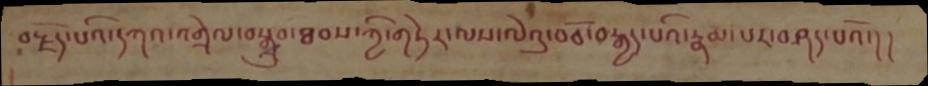བརྗོད་པའི་དཀའ་འགྲེལ་བསྒྲུབ་ཐབས་ཀྱི་གཏེར་ལས་ལེའུ་བཅོ་བརྒྱད་པའི་རྣམ་པར་བཤད་པའོ་།།
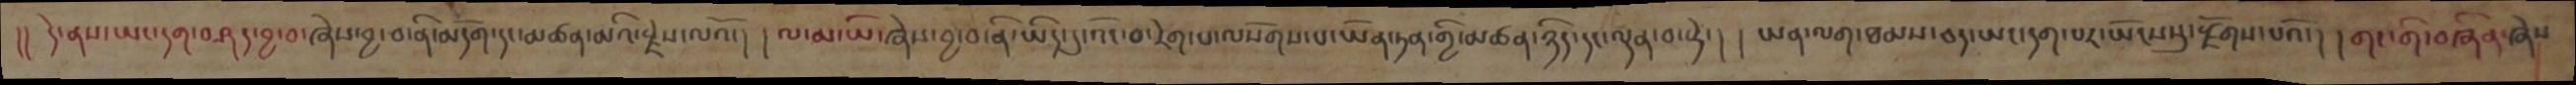།། དེ་ནས་ཡང་དག་བཤད་བྱ་བ་ཞེས་བྱ་བ་ནི་མདོག་དང་མཚན་མའི་རྗེས་ལའོ་། །ལ་མ་ཡི་ཞེས་བྱ་བ་ནི་ཡིད་དུ་འོང་བ་རེག་པ་ལསོགས་པ་ཡོན་ཏན་གྱི་མཚན་ཉིད་དང་ལྡན་བ་སྟེ་། །ཡན་ལག་ཐམས་ཅད་ཡང་དག་པར་ཡོངས་སུ་རྫོགས་པའོ་། །གང་གི་བཞིན་ཞེས་
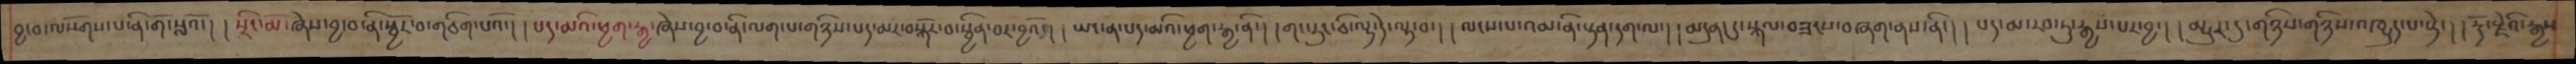བྱ་བ་ལསོགས་པ་ནི་གོ་སླའོ་། །སྲིང་མོ་ཞེས་བྱ་བ་ནི་སྦྱོར་བ་གཅིག་པའོ་། །པད་མའི་ཕྱག་རྒྱ་ཞེས་བྱ་བ་ནི་ལག་པ་གཉིས་པད་མར་བསྐོར་བ་སྦྱིན་བར་བྱའོ་། །ཡང་ན་པད་མའི་ཕྱག་རྒྱ་ནི་། །གང་རུང་ཅི་ལྟ་དེ་ལྟ་བ་། །ལངས་པ་འམ་ནི་སྟན་དག་ལ་། །མདུན་དུ་སྐལ་བཟངས་བཞག་ནས་ནི་། །པད་མ་རབ་ཏུ་རྒྱས་པར་བྱ་། །མྱུར་དུ་གཉིས་གཉིས་འཁྱུད་པ་སྟེ་། རྡོ་རྗེའི་རྒྱས
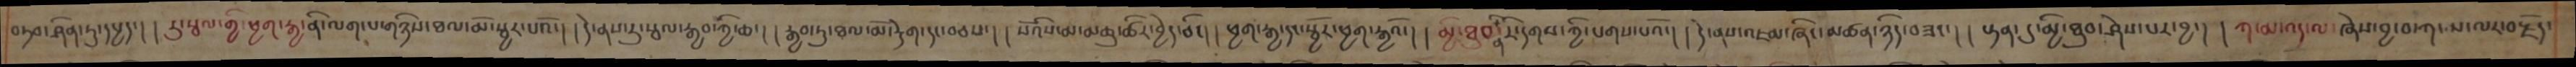བཏབ་ཤིན་ཏུ་དཔྱད་། །རུ་སྦལ་གྱི་ཕྱག་རྒྱ་ནི་ལག་པ་གཉིས་ཐལ་མོ་སྦྱར་པའོ་། །དེ་ནས་རུ་སྦལ་རྒྱབ་ཀྱི་ཆ་། །རྒྱབ་ཏུ་ཐལ་མོ་རྡེག་དང་བཅས་། །སོའིས་མ་མཆུ་ཚིར་བྱེད་ཅིང། །ཕྱག་རྒྱ་དང་སྦྱོར་ཕྱག་རྒྱའོ་། །མྱི་ཐུབ་ནི་རི་དགས་ཀྱི་པགས་པའོ་། །དེ་ནས་འཇམ་ཞིང་མཚན་ཉིད་བཟང་། །སྟན་དུ་མྱི་ཐུབ་ཤེས་པར་བྱ་། །ཀ་མ་འདུ་ལ་ཞེས་བྱ་བ་ཀ་པ་ལར་བརྗོད་
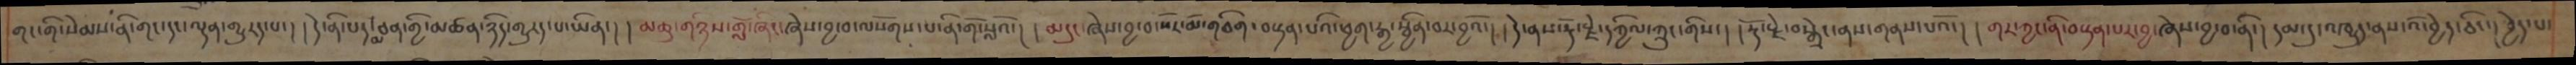གང་གི་སེམས་ནི་གང་དང་ལྡན་གྱུརད་པ་། །དེ་ནི་པད་མ་ཅན་གྱི་མཚན་ཉིད་གྱུརད་པ་ཡིན་། །མཆུ་གཉིས་གློ་ཞིང་ཞེས་བྱ་བ་ལསོགས་པ་ནི་གོ་སླའོ་། །མདུང་ཞེས་བྱ་བ་སེར་མོ་གཅིག་བསྟན་པའི་ཕྱག་རྒྱ་སྦྱིན་བར་བྱའོ་། །དེ་ནས་རྡོ་རྗེ་དཀྱིལ་ཀྲུང་གིས་། །རྡོ་རྗེ་བསྒྲེང་ནས་གནས་པའོ་། །གར་ཀྱང་ནི་བསྟན་པར་བྱ་ཞེས་བྱ་བ་ནི་། དམ་དུ་འཁྱུད་ནས་འོ་བྱེད་ཅིང་། བྱེད་པ་
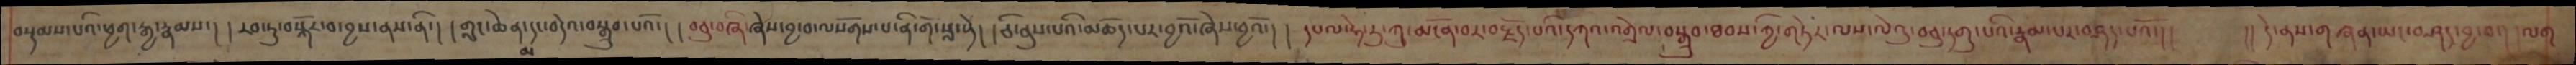བསྡམས་པའི་ཕྱག་རྒྱ་རྣམས་། །རབ་ཏུ་བསྐོར་བ་བྱས་ནས་ནི་། །གླང་ཆེན་མ་དང་བདེའ་བསྒྲུབ་པའོ་། །བཅུ་བཞི་ཞེས་བྱ་བ་ལསོགས་པ་ནི་གོ་སླ་སྟེ། །ཅི་ནུས་པའི་མཆོད་པར་བྱའོ་ཞེས་བྱའོ་། །དཔལ་ཧེ་རུ་ཀ་མངོན་པར་བརྗོད་པའི་དཀའ་འགྲེལ་བསྒྲུབ་ཐབས་ཀྱི་གཏེར་ལས་ལེའུ་བཅུ་དགུ་པའི་རྣམ་པར་བཤད་པའོ་།།    །། དེ་ནས་གཞན་ཡང་བཤད་བྱ་བ་། །ལག
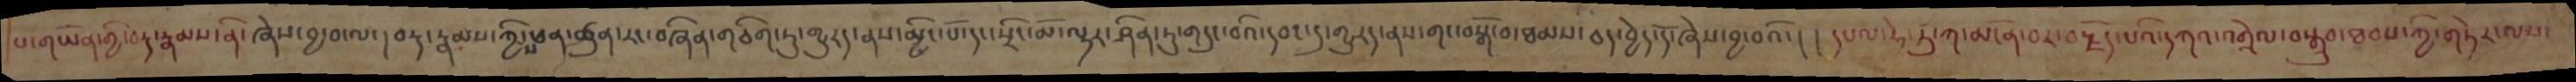པ་གཡོན་གྱི་བརྡ་རྣམས་ནི་ཞེས་བྱ་བ་ལ་། བརྡ་རྣམས་ཀྱིས་ཕན་ཚུན་རང་བཞིན་གཅིག་ཏུ་གྱུརད་ནས་མྱིང་པོ་དང་སྲིང་མོ་ལྟར་ཤིན་ཏུ་གདུང་བའི་དབང་དུ་གྱུརད་ནས་གང་བསྒོ་བ་ཐམས་ཅད་བྱེད་དོ་ཞེས་བྱ་བའོ་། །དཔལ་ཧེ་རུ་ཀ་མངོན་བར་བརྗོད་པའི་དཀའ་འགྲེལ་བསྒྲུབ་ཐབས་ཀྱི་གཏེར་ལས་
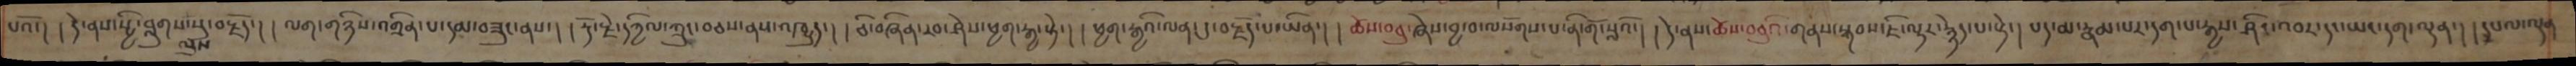པའོ་། །དེ་ནས་སྤྱི་བླུགས་ལུས་སུ་བརྗོད་། །ལག་གཉིས་འགྲིན་པ་དམ་བཟུང་ནས་། །རྡོ་རྗེ་དཀྱིལ་ཀྲུང་བཅས་ནས་འཁྱུད་། །ཅི་བཞིན་རབ་ཤེས་ཕྱག་རྒྱ་སྟེ་། །ཕྱག་རྒྱའི་ལན་དུ་བརྗོད་པ་ཡིན་། །ཚེས་བཅུ་ཞེས་བྱ་བ་ལསོགས་པ་ནི་གོ་སླའོ་། །དེ་ནས་ཚེས་བཅུའི་གནས་སྐབས་ཇི་ལྟར་རྙེད་པ་སྟེ་། པད་མ་རྣམ་པར་དག་པ་རྒྱས་ཤིང་འབར་དང་ཡང་དག་ལྡན་། །དཔལ་ལྡན་
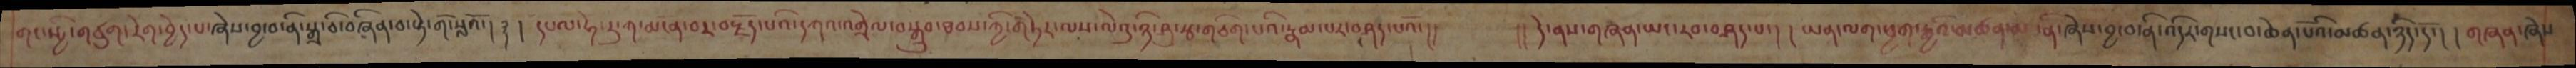གང་སྤྱི་གཙུག་རེག་བྱེད་པ་ཞེས་བྱ་བ་ནི་སྒྲ་ཅི་བཞིན་བ་སྟེ་གོ་སླའོ་། ࿑ །དཔལ་ཧེ་རུ་ཀ་མངོན་པར་བརྗོད་པའི་དཀའ་འགྲེལ་བསྒྲུབ་ཐབས་ཀྱི་གཏེར་ལས་ལེའུ་ཉི་ཤུ་རྩ་གཅིག་པའི་རྣམ་པར་བཤད་པའོ་།།    །།དེ་ནས་གཞན་ཡང་རབ་བཤད་པ་། །ཡན་ལག་ཕྱག་རྒྱའི་མཚན་མ་ནི་ཞེས་བྱ་བ་ནི་འདིར་གསང་བ་ཆེན་པོའི་མཚན་ཉིད་དོ་། །གཞན་ཞེས་
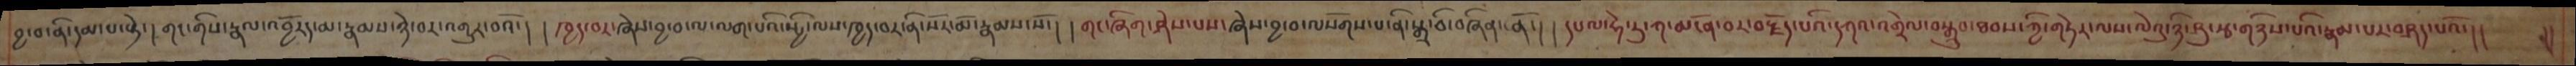བྱ་བ་ནི་དམ་པ་སྟེ་། གང་གིས་རྣལ་འབྱོརད་མ་རྣམས་ཉེ་བར་འགྱུར་བའོ་། །ཁྱད་པར་ཞེས་བྱ་བ་ལ་ལག་པའི་སྤྱི་ལས་ཁྱད་པར་ནི་སོར་མོ་རྣམས་སོ་། །གང་ཞིག་ཤེས་པས་ཞེས་བྱ་བ་ལསོགས་པ་ནི་སྒྲ་ཅི་བཞིན་ནོ་། །དཔལ་ཧེ་རུ་ཀ་མངོན་པར་བརྗོད་པའི་དཀའ་འགྲེལ་བསྒྲུབ་ཐབས་ཀྱི་གཏེར་ལས་ལེའུ་ཉི་ཤུ་རྩ་གཉིས་པའི་རྣམ་པར་བཤད་པའོ་།།   །།
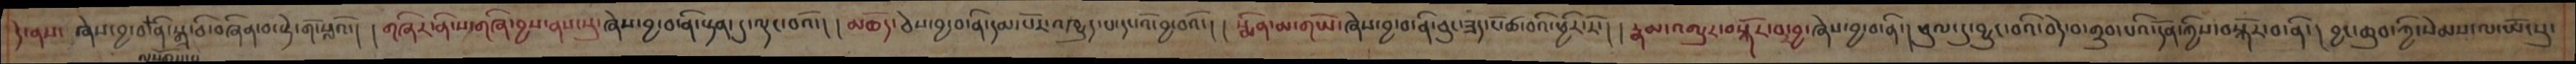ད་ནས་  ཞེས་བྱ་བ་ནི་སྒྲ་ཅི་བཞིན་བ་སྟེ་གོ་སླའོ་། །གཞིར་ནི་ས་གཞི་བྱས་ནས་སུ་ཞེས་བྱ་བ་ནི་སྟན་དུ་ལུང་བའོ་། །མཆོད་ཅེས་བྱ་བ་ནི་དམ་པོར་འཁྱུད་པ་དཔའོ་བྱ་བའོ་། །སྨིན་མ་གཡོ་ཞེས་བྱ་བ་ནི་ཅུང་ཟད་ངོ་ཚ་བའི་ཕྱིར་རོ་། །རྣམ་འགྱུར་བསྐོར་བར་བྱ་ཞེས་བྱ་བ་ནི་། ཕུལ་དུ་བྱུང་བའི་བདེ་བ་གྲུབ་པའི་དོན་གྱིས་བསྐོར་བ་ནི་། བྱང་ཆུབ་ཀྱི་སེམས་ལ་ཡོངསུ་
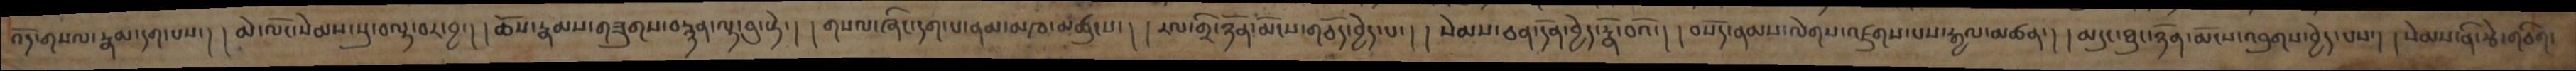འོད་གསལ་རྣམ་དག་པས་། །མེ་ལོང་སེམས་སུ་བལྟ་བར་བྱ་། །ཆོས་རྣམས་གཟུགས་བརྙན་ལྟ་བུ་སྟེ་། །གསལ་ཞིང་དག་པ་ནམ་མཁ་མཚུངས་། །རལ་གྲི་ཉོན་མོངས་གཅོད་བྱེད་པ་། །སེམས་ཅན་དོན་བྱེད་རྣོ་བའོ་། །བསོད་ནམས་ལེགས་འཛུགས་པས་རྒྱལ་མཚན་། །མདུང་ཐུང་ཉོན་མོངས་འབུགས་བྱེད་པས་། །སེམས་ནི་རྩེ་གཅིག་
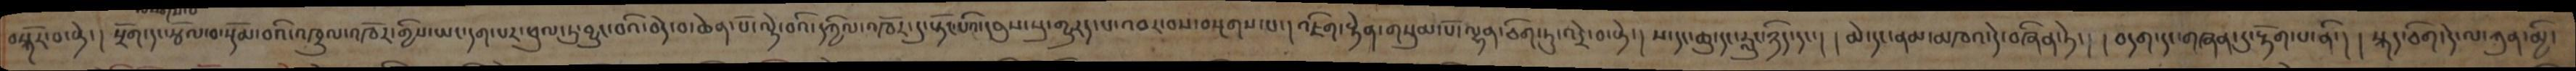བསྐོར་བ་སྟེ་། སྲོག་དང་རྩོལ་བ་སྡོམ་བའི་འཁྲུལ་འཁོར་གྱིས་ཡང་དག་པར་ཕུལ་ཏུ་བྱུང་བའི་བདེ་བ་ཆེན་པོ་ལྟེ་བའི་དཀྱིལ་འཁོར་དུ་སྟོང་པའི་དབུས་སུ་གྱུརད་པ་འབར་བས་བསྔགས་པ་། འཇིག་རྟེན་གསུམ་པོ་ལྷན་ཅིག་ཏུ་འདྲེ་བ་སྟེ་། ས་དང་ཆུ་དང་རླུང་ཉིད་དང་། །མེ་དང་ནམ་མཁའ་དེ་བཞིན་ཏེ་། །བདག་དང་གཞན་དུ་རྟོག་པ་ནི་། ། སྐད་ཅིག་དེ་ལ་ཀུན་མྱི་
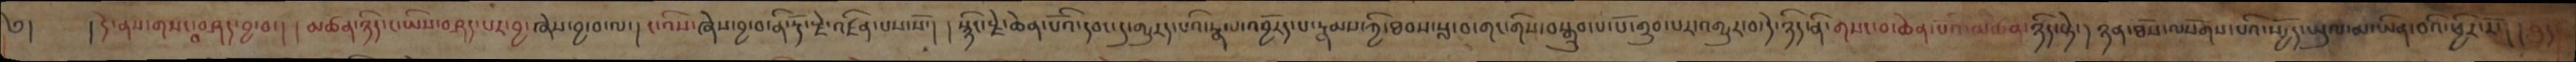༄ ། །དེ་ནས་གསང་བ་བཤད་བྱ་བ་། །མཚན་ཉིད་ང་ཡིས་བཤད་པར་བྱ་ཞེས་བྱ་བ་ལ་། ང་འིས་ཞེས་བྱ་བ་ནི་རྡོ་རྗེ་འཛིན་པས་སོ་། །སྙིང་རྗེ་ཆེན་པོའི་དབང་དུ་གྱུརད་པའི་རྣལ་འབྱོརད་པ་རྣམས་ཀྱི་ཐབས་སླ་བ་གང་གིས་བསྒྲུབ་པ་པོ་གྲུབ་པར་འགྱུར་བ་དེ་ཉིད་ནི་གསང་བ་ཆེན་པོའི་མཚན་ཉིད་སྟེ་ །ཉན་ཐོས་ལསོགས་པའི་སྤྱོད་ཡུལ་མ་ཡིན་བའི་ཕྱིར་རོ་། །
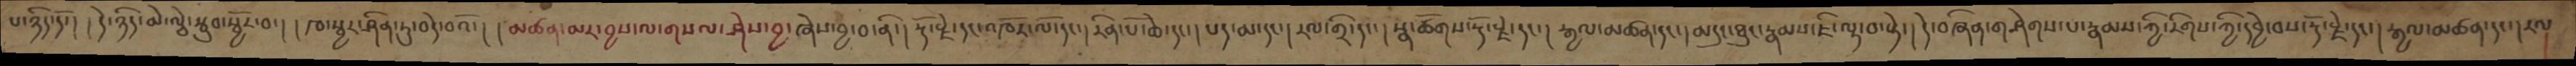པ་ཉིད་དོ་། །དེ་ཉིད་མེ་ལྕེ་སྦུབ་སྦྱོར་བ་། །ཁ་སྦྱར་ཤིན་ཏུ་བདེ་བའོ་། མཚན་མར་བྱས་ལ་གསལ་ཤེས་བྱ་ཞེས་བྱ་བ་ནི་། རྡོ་རྗེ་དང་འཁོར་ལོ་དང་། རིན་པོ་ཆེ་དང་། པད་མ་དང་། རལ་གྲི་དང་། སྣ་ཚོགས་རྡོ་རྗེ་དང་། རྒྱལ་མཚན་དང་། མདུང་ཐུང་རྣམས་ཇི་ལྟ་བ་སྟེ་། དེ་བཞིན་གཤེགས་པ་རྣམས་ཀྱི་རིགས་ཀྱི་དབྱེ་བས་རྡོ་རྗེ་དང་། རྒྱལ་མཚན་དང་། རལ་
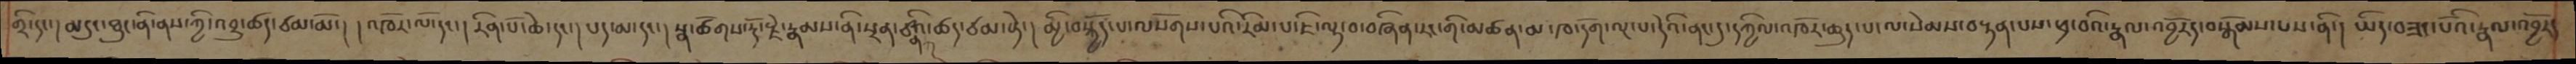གྲི་དང་། མདུང་ཐུང་ནི་ནས་ཀྱི་འབྲུ་ཚད་ཙམ་མོ་། །འཁོར་ལོ་དང་། རིན་པོ་ཆེ་དང་། པད་མ་དང་། སྣ་ཚོགས་རྡོ་རྗེ་རྣམས་ནི་སྲན་ཙ་ནའི་ཚད་ཙམ་སྟེ་། མྱི་བསྐྱོད་པ་ལསོགས་པའི་རིམ་པ་ཇི་ལྟ་བ་བཞིན་རང་གི་མཚན་མ་ཁ་དོག་ལྔ་པ་དེའི་ནང་དུ་དཀྱིལ་འཁོར་ཆུད་པ་ལ་སེམས་བསྟན་པས་ཕྲ་བའི་རྣལ་འབྱོརད་བསྒོམས་པས་ནི་། ཡིད་བཟང་པོའི་རྣལ་འབྱོརད་
